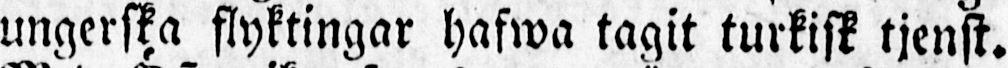ungerska flyktingar hafwa tagit turkisk tjenst.
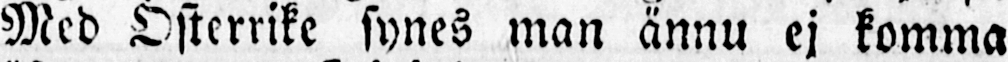Med Österrike synes man ännu ej komma
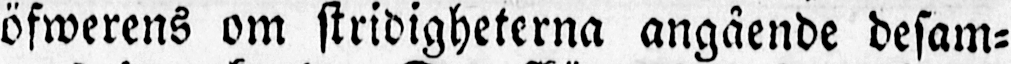öfwerens om stridigheterna angående desam-
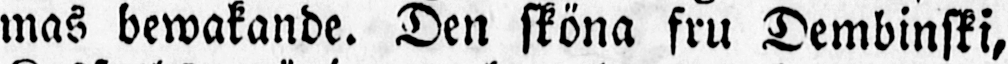mas bewakande. Den sköna fru Dembinski,
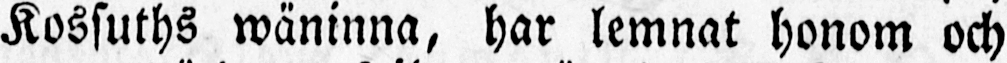Kossuths wäninna, har lemnat honom och
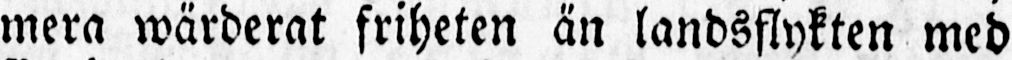mera wärderat friheten än landsflykten med
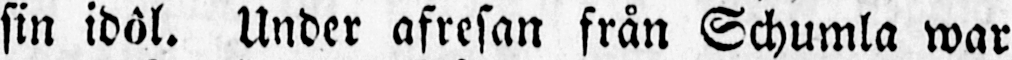sin idôl. Under afresan från Schumla war
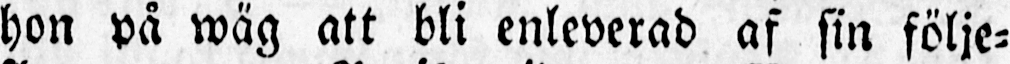hon på wäg att bli enleverad af sin följe-
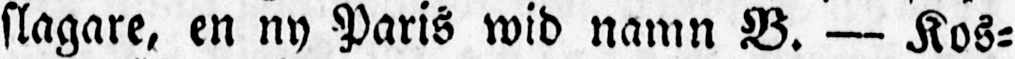slagare, en ny Paris wid namn B. — Kos-
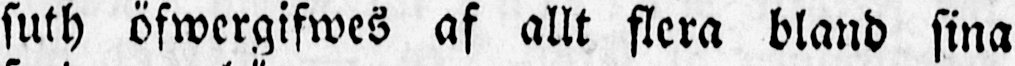suth öfwergifwes af allt flera bland sina
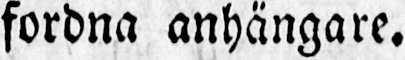fordna anhängare.
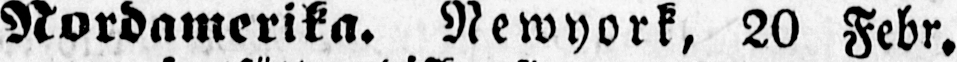Nordamerika. Newyork, 20 Febr.
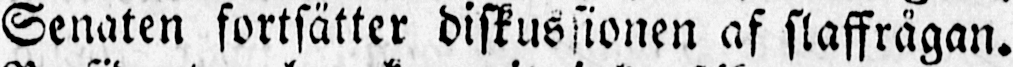Senaten fortsätter diskussionen af slaffrågan.
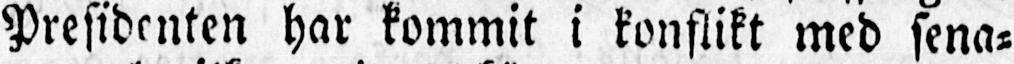Presidenten har kommit i konflikt med sena-
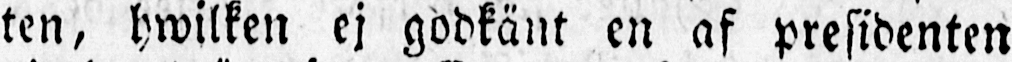ten, hwilken ej godkänt en af presidenten
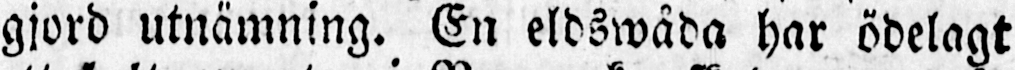gjord utnämning. En eldswåda har ödelagt
